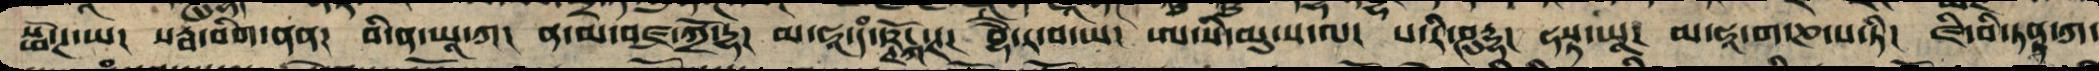སྥོ་ཊ་ཡ། སརྦ་བིག་ནན། བི་ནཱ་ཡ་ཀཱ། ན་མ་བཛྲ་ཀྲོ་དྷ། མ་ཧཱ་དཾ་ཥྚོ་ཀ་ཊ། བྷཻ་ར་བ་ཡ། ཨ་སི་མུ་ས་ལ། པ་རི་ཤུདྡྷ། ཧསྟ་ཡཱ། མ་ཧཱ་ག་ཎ་པ་ཏི། ཛཱི་བི་ཏཱནྡ་ཀ་
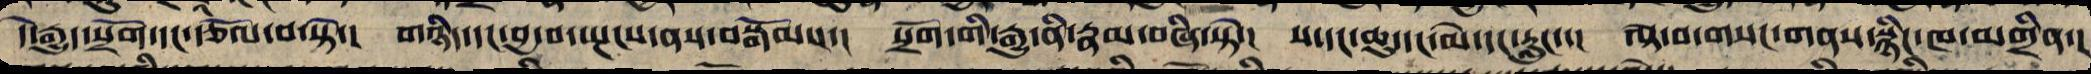དེ་རྒྱུ་སྲོག་དང་རྩོལ་བ་སྟེ་། གཉིད་དང་བྱ་བ་སྤངས་ནས་བསྒོམ་། སྲོག་གི་རྒྱུ་ནི་རྣམ་བཞི་སྟེ་། ས་དང་ཆུ་དང་མེ་དང་རླུང་་། ལྟ་བ་གསང་གནས་སྙིང་ག་མགྲིན་།
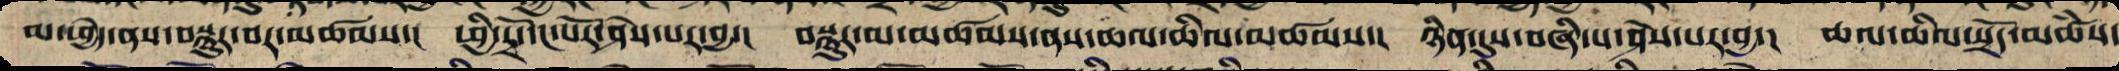མ་ཕྱེད་ནས་མྱུར་སྨད་མཚམས་། ཕྱི་དྲོ་དང་པོར་ཤེས་པར་བྱ་། མྱུར་མ་མཚམས་ནས་ཆལ་ཆིལ་མཚམས་། ཉིན་དུས་བཞི་པར་ཤེས་པར་བྱ་། ཆལ་ཆིལ་སྲོད་མཚཾས་
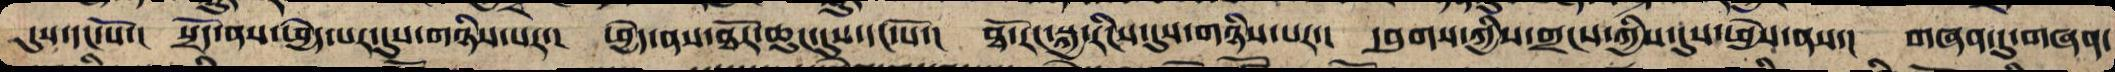དུས་དང་པོ་། སྲོད་ནས་ཕྱེད་བར་དུས་གཉིས་པར་། ཕྱེད་ནས་ཐོར་ཆུང་དུས་དང་པོ་། ཐོ་རངས་སྐྱ་རིངས་དུས་གཉིས་པར་། དབུགས་ཀྱི་གྲངས་ཀྱིས་དུས་ཕྱེས་ནས་། གཞན་དུ་གཞན་
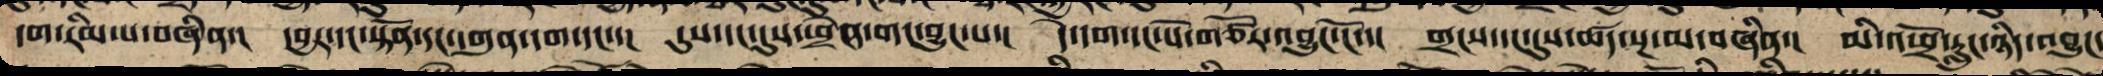དག་རིམ་པ་བཞིན་། དབྱར་དང་སྟོན་དང་དགུན་དག་དང་་། དུས་དང་དུས་ཕྲེན་གང་བྱུང་བ་། དེ་དག་དང་པོ་གཙོར་འབྱུང་ངོ་་། གྲངས་དང་དུས་ཚད་སྔ་མ་བཞིན་། མི་འཕྲོ་རླུང་ཉིད་འབྱུང་
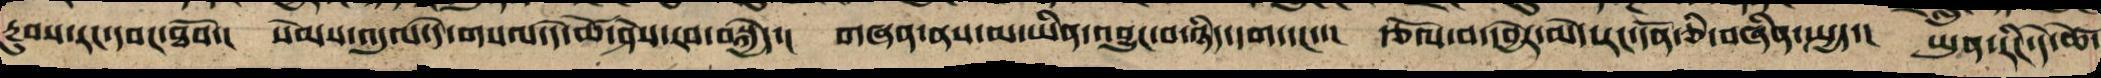རྔུབས་རང་དབང་ཐོབ་། སེམས་འདུལ་དེ་གསལ་དེ་ཚེ་ཤེས་རབ་བསྐྱེད་། གཞན་ནས་མ་ཡིན་འབྱུང་བ་ཉིད་དག་དང་་། རྩོལ་བ་དབྱེར་མེད་རང་དོན་ཅི་བཞིན་སྤྱད་། ཡུན་རིང་དེ་ཚེ་
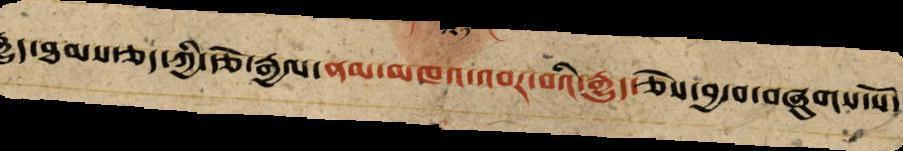རྒྱུད་ཐམས་ཅད་ཀྱི་རྩེ་རྒྱལ་ནམ་མཁའ་འབར་བའི་རྒྱུད་ཅེས་བྱ་བ་བཞུགས་སོ་
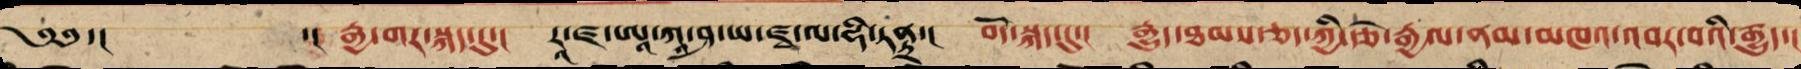༄༅་། ་།རྒྱ་གར་སྐད་དུ་། རཱ་ཛ་ཨ་ཀ་ཤ་ཡ་ཛྭ་ལ་ཧི་ཏནྟྲ་། བོད་སྐད་དུ་། རྒྱུད་ཐམས་ཅད་ཀྱི་རྩེ་རྒྱལ་ནམ་མཁའ་འབར་བའི་རྒྱུད།
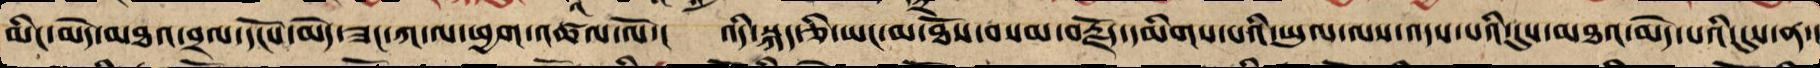མིང་མེད་མཐའ་བྲལ་དངོས་མེད་ཟང་ཀ་ལ་ཕྱག་འཚལ་ལོ་། འདི་སྐད་ཅི་ཡང་མ་ཐོས་བསམ་བརྗོད་དམིགས་པའི་ཡུལ་ལས་འདས་པའི་དུས་མཐའ་མེད་པའི་དུས་ན་།
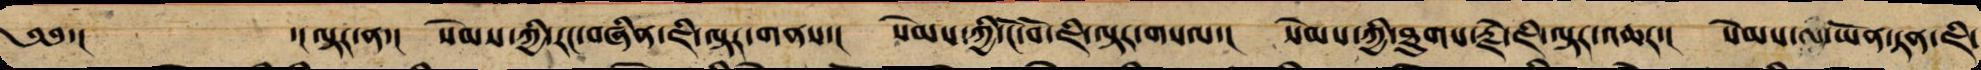༄༅་། ་།ལྟར་ན་། སེམས་ཀྱི་རང་བཞིན་ཇི་ལྟར་གནས་། སེམས་ཀྱི་ངོ་བོ་ཇི་ལྟར་གསལ་། སེམས་ཀྱི་ཐུགས་རྗེ་ཇི་ལྟར་འཆར་། སེམས་ལ་ཡོན་ཏན་ཇི་
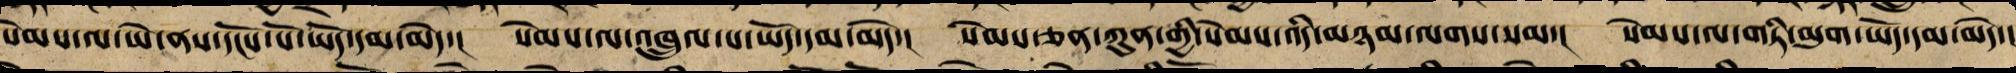སེམས་ལ་ཡེ་ནས་དངོས་པོ་ཡོད་དམ་མེད་། སེམས་ལ་འཁྲུལ་པ་ཡོད་དམ་མེད་། སེམས་ཅན་ཀུན་གྱི་སེམས་འདི་མཉམ་ལགས་སམ་། སེམས་ལ་གཏི་མུག་ཡོད་དམ་མེད་།
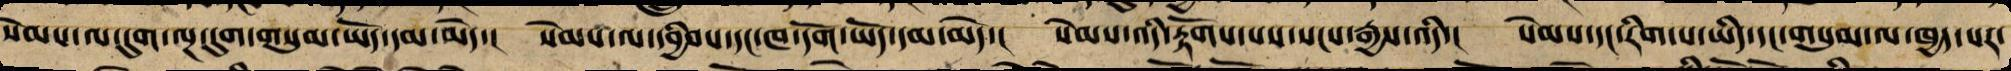སེམས་ལ་དུག་ལྔ་དུག་གསུམ་ཡོད་དམ་མེད་། སེམས་ལ་དབྱིབས་དང་ཁ་དོག་ཡོད་དམ་མེད་། སེམས་འདི་རྟོགས་པས་སངས་རྒྱས་སམ་། སེམས་དང་རིག་པ་ཡིད་དང་གསུམ་ལ་ཁྱད་པར་
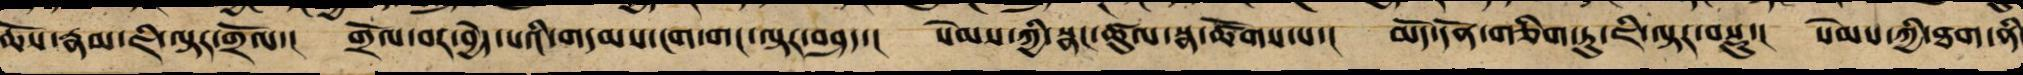ཆོས་རྣམས་ཇི་ལྟར་གྲོལ་། གྲོལ་བར་བྱེད་པའི་གདམས་ངག་གང་ལྟར་བཤད་། སེམས་ཀྱི་སྣང་ཚུལ་སྣ་ཚོགས་པ་། མདོ་དོན་གཅིག་ཏུ་ཇི་ལྟར་བསྡུ་། སེམས་ཀྱི་ཐག་ནི
